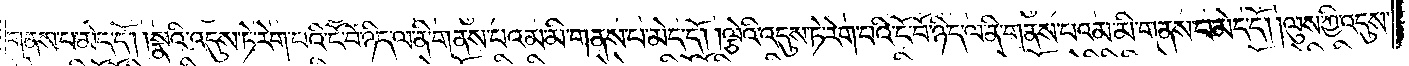གནས་པ་མེད་དོ། །སྣའི་འདུས་ཏེ་རེག་པའི་ངོ་བོ་ཉིད་ལ་ནི་གནས་པའམ་མི་གནས་པ་མེད་དོ། །ལྕེའི་འདུས་ཏེ་རེག་པའི་ངོ་བོ་ཉིད་ལ་ནི་གནས་པའམ་མི་གནས་པ་མེད་དོ། །ལུས་ཀྱི་འདུས་
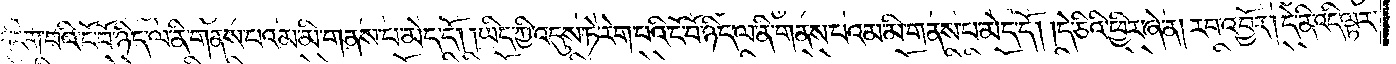རེག་པའི་ངོ་བོ་ཉིད་ལ་ནི་གནས་པའམ་མི་གནས་པ་མེད་དོ། །ཡིད་ཀྱི་འདུས་ཏེ་རེག་པའི་ངོ་བོ་ཉིད་ལ་ནི་གནས་པའམ་མི་གནས་པ་མེད་དོ། །དེ་ཅིའི་ཕྱིར་ཞེ་ན། རབ་འབྱོར། དེ་ནི་འདི་ལྟར་
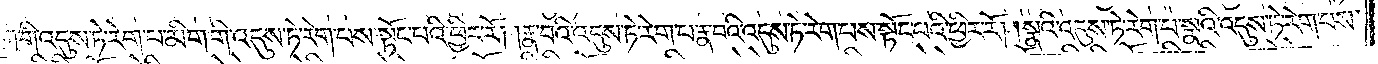གི་འདུས་ཏེ་རེག་པ་མིག་གི་འདུས་ཏེ་རེག་པས་སྟོང་པའི་ཕྱིར་རོ། །རྣ་བའི་འདུས་ཏེ་རེག་པ་རྣ་བའི་འདུས་ཏེ་རེག་པས་སྟོང་པའི་ཕྱིར་རོ། །སྣའི་འདུས་ཏེ་རེག་པ་སྣའི་འདུས་ཏེ་རེག་པས་
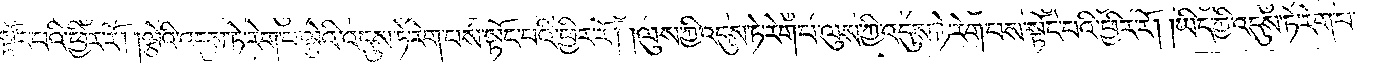སྟོང་པའི་ཕྱིར་རོ། །ལྕེའི་འདུས་ཏེ་རེག་པ་ལྕེའི་འདུས་ཏེ་རེག་པས་སྟོང་པའི་ཕྱིར་རོ། །ལུས་ཀྱི་འདུས་ཏེ་རེག་པ་ལུས་ཀྱི་འདུས་ཏེ་རེག་པས་སྟོང་པའི་ཕྱིར་རོ། །ཡིད་ཀྱི་འདུས་ཏེ་རེག་པ་
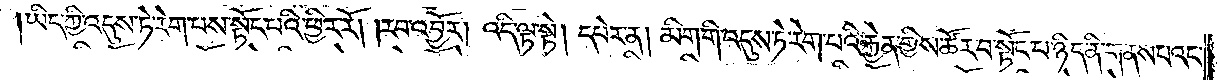ཡིད་ཀྱི་འདུས་ཏེ་རེག་པས་སྟོང་པའི་ཕྱིར་རོ། །རབ་འབྱོར། འདི་ལྟ་སྟེ། དཔེར་ན། མིག་གི་འདུས་ཏེ་རེག་པའི་རྐྱེན་གྱིས་ཚོར་བ་སྟོང་པ་ཉིད་ནི་གནས་པའང་
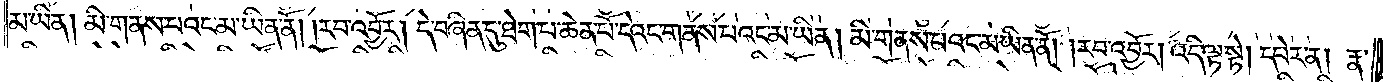མ་ཡིན། མི་གནས་པའང་མ་ཡིན་ནོ། །རབ་འབྱོར། དེ་བཞིན་དུ་ཐེག་པ་ཆེན་པོ་དེའང་གནས་པའང་མ་ཡིན། མི་གནས་པའང་མ་ཡིན་ནོ། །རབ་འབྱོར། འདི་ལྟ་སྟེ། དཔེར་ན། རྣ་
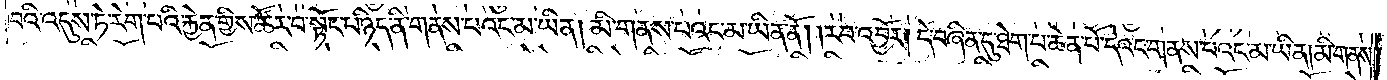བའི་འདུས་ཏེ་རེག་པའི་རྐྱེན་གྱིས་ཚོར་བ་སྟོང་པ་ཉིད་ནི་གནས་པའང་མ་ཡིན། མི་གནས་པའང་མ་ཡིན་ནོ། །རབ་འབྱོར། དེ་བཞིན་དུ་ཐེག་པ་ཆེན་པོ་དེའང་གནས་པའང་མ་ཡིན། མི་གནས་
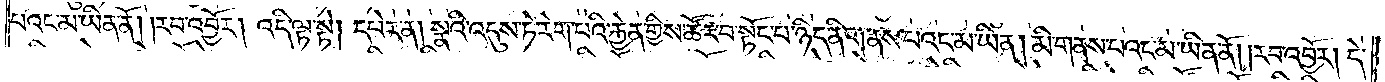པའང་མ་ཡིན་ནོ། །རབ་འབྱོར། འདི་ལྟ་སྟེ། དཔེར་ན། སྣའི་འདུས་ཏེ་རེག་པའི་རྐྱེན་གྱིས་ཚོར་བ་སྟོང་པ་ཉིད་ནི་གནས་པའང་མ་ཡིན། མི་གནས་པའང་མ་ཡིན་ནོ། །རབ་འབྱོར། དེ་
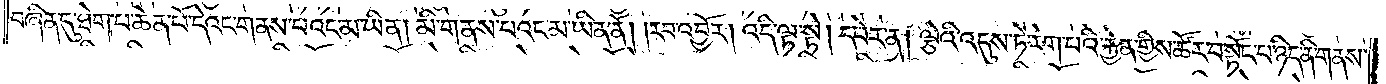བཞིན་དུ་ཐེག་པ་ཆེན་པོ་དེའང་གནས་པའང་མ་ཡིན། མི་གནས་པའང་མ་ཡིན་ནོ། །རབ་འབྱོར། འདི་ལྟ་སྟེ། དཔེར་ན། ལྕེའི་འདུས་ཏེ་རེག་པའི་རྐྱེན་གྱིས་ཚོར་བ་སྟོང་པ་ཉིད་ནི་གནས་
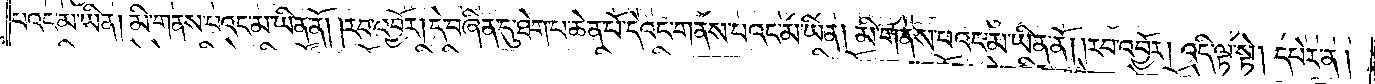པའང་མ་ཡིན། མི་གནས་པའང་མ་ཡིན་ནོ། །རབ་འབྱོར། དེ་བཞིན་དུ་ཐེག་པ་ཆེན་པོ་དེའང་གནས་པའང་མ་ཡིན། མི་གནས་པའང་མ་ཡིན་ནོ། །རབ་འབྱོར། འདི་ལྟ་སྟེ། དཔེར་ན།
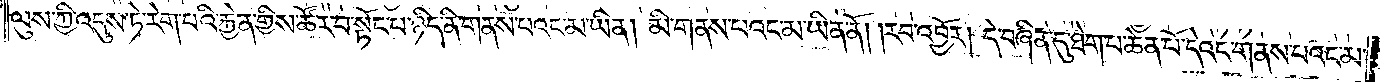ལུས་ཀྱི་འདུས་ཏེ་རེག་པའི་རྐྱེན་གྱིས་ཚོར་བ་སྟོང་པ་ཉིད་ནི་གནས་པའང་མ་ཡིན། མི་གནས་པའང་མ་ཡིན་ནོ། །རབ་འབྱོར། དེ་བཞིན་དུ་ཐེག་པ་ཆེན་པོ་དེའང་གནས་པའང་མ་
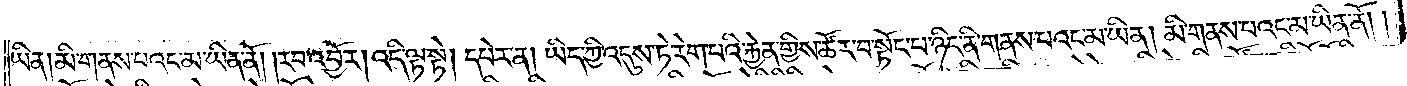ཡིན། མི་གནས་པའང་མ་ཡིན་ནོ། །རབ་འབྱོར། འདི་ལྟ་སྟེ། དཔེར་ན། ཡིད་ཀྱི་འདུས་ཏེ་རེག་པའི་རྐྱེན་གྱིས་ཚོར་བ་སྟོང་པ་ཉིད་ནི་གནས་པའང་མ་ཡིན། མི་གནས་པའང་མ་ཡིན་ནོ། །
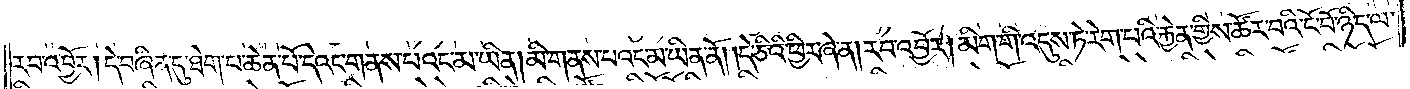རབ་འབྱོར། དེ་བཞིན་དུ་ཐེག་པ་ཆེན་པོ་དེའང་གནས་པའང་མ་ཡིན། མི་གནས་པའང་མ་ཡིན་ནོ། །དེ་ཅིའི་ཕྱིར་ཞེ་ན། རབ་འབྱོར། མིག་གི་འདུས་ཏེ་རེག་པའི་རྐྱེན་གྱིས་ཚོར་བའི་ངོ་བོ་ཉིད་ལ་
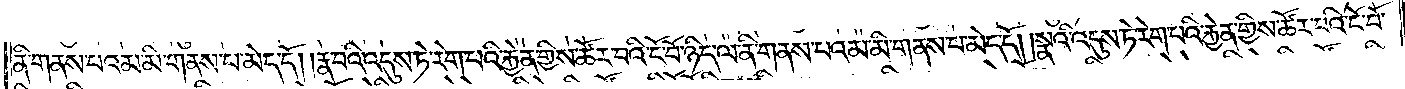ནི་གནས་པའམ་མི་གནས་པ་མེད་དོ། །རྣ་བའི་འདུས་ཏེ་རེག་པའི་རྐྱེན་གྱིས་ཚོར་བའི་ངོ་བོ་ཉིད་ལ་ནི་གནས་པའམ་མི་གནས་པ་མེད་དོ། །སྣའི་འདུས་ཏེ་རེག་པའི་རྐྱེན་གྱིས་ཚོར་བའི་ངོ་བོ་
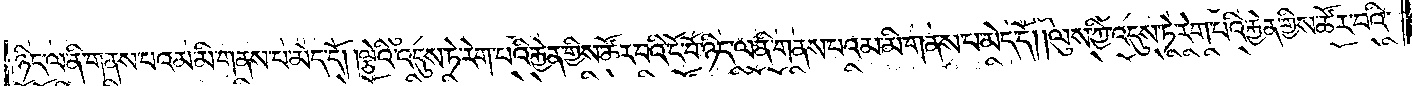ཉིད་ལ་ནི་གནས་པའམ་མི་གནས་པ་མེད་དོ། །ལྕེའི་འདུས་ཏེ་རེག་པའི་རྐྱེན་གྱིས་ཚོར་བའི་ངོ་བོ་ཉིད་ལ་ནི་གནས་པའམ་མི་གནས་པ་མེད་དོ། །ལུས་ཀྱི་འདུས་ཏེ་རེག་པའི་རྐྱེན་གྱིས་ཚོར་བའི་
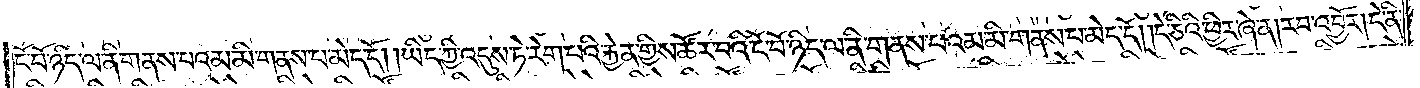ངོ་བོ་ཉིད་ལ་ནི་གནས་པའམ་མི་གནས་པ་མེད་དོ། །ཡིད་ཀྱི་འདུས་ཏེ་རེག་པའི་རྐྱེན་གྱིས་ཚོར་བའི་ངོ་བོ་ཉིད་ལ་ནི་གནས་པའམ་མི་གནས་པ་མེད་དོ། །དེ་ཅིའི་ཕྱིར་ཞེ་ན། རབ་འབྱོར། དེ་ནི་
